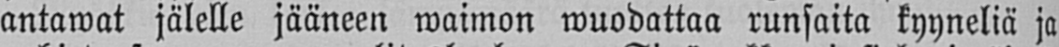antawat jälelle jääneen waimon wuodattaa runsaita kyyneliä ja
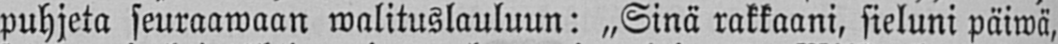puhjeta seuraawaan walituslauluun: „Sinä rakkaani, sieluni päiwä,
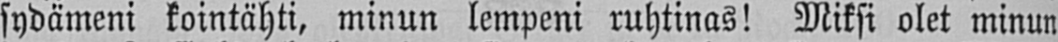sydämeni kointähti, minun lempeni ruhtinas! Miksi olet minun
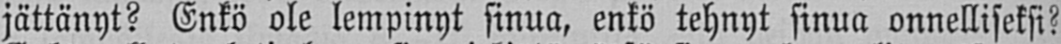jättänyt? Enkö ole lempinyt sinua, enkö tehnyt sinua onnelliseksi?
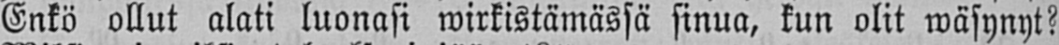Enkö ollut alati luonasi wirkistämässä sinua, kun olit wäsynyt?
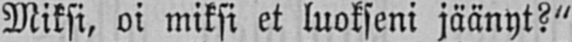Miksi, oi miksi et luokseni jäänyt?"
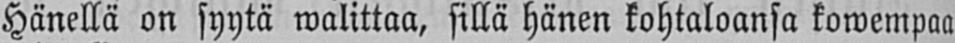Hänellä on syytä walittaa, sillä hänen kohtaloansa kowempaa
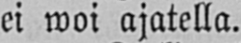ei woi ajatella.
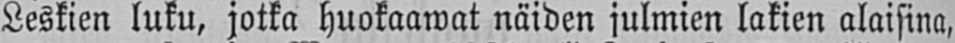Leskien luku, jotka huokaawat näiden julmien lakien alaisina,
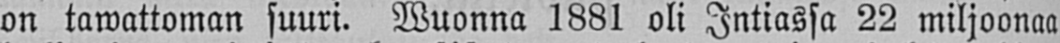on tawattoman suuri. Wuonna 1881 oli Intiassa 22 miljoonaa
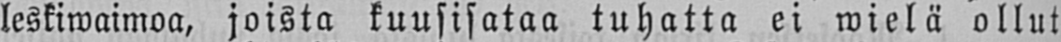leskiwaimoa, joista kuusisataa tuhatta ei wielä ollut
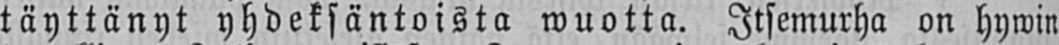täyttänyt yhdeksäntoista wuotta. Itsemurha on hywin
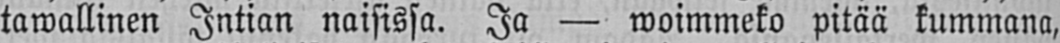tawallinen Intian naisissa. Ja — woimmeko pitää kummana,
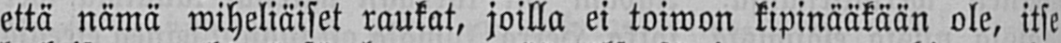että nämä wiheliäiset raukat, joilla ei toiwon kipinääkään ole, itse
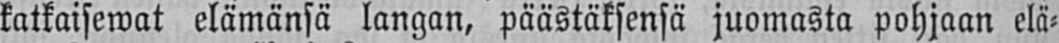katkaisewat elämänsä langan, päästäksensä juomasta pohjaan elä-
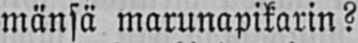mänsä marunapikarin?
